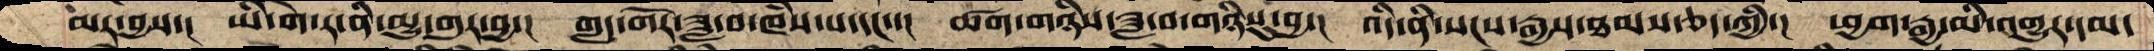མར་བྱས་།  ཡི་གེ་ར་ནི་མྱུ་གུར་བྱ་།  གླད་གོར་ཟླ་བ་ཁཾས་པ་དང་་།  ཚག་གཉིས་ཟླ་བ་གཉིས་སུ་བྱ་།  འདི་ནི་སངས་རྒྱས་ཐམས་ཅད་ཀྱི་།  ཕྱག་རྒྱ་མི་འགྱུར་དམ་
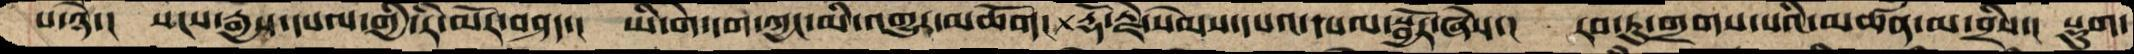པ་ཉེ་།  སངས་རྒྱས་དཔལ་གྱི་རི་མོར་བཤད་།  ཡི་གེ་དག་ཀྱང་མི་འགྱུར་མཆོག།  རྡོ་རྗེ་སེམས་དཔའ་དཔལ་སྦྱོར་ཞེས་།  རབ་ཏུ་གྲགས་པའི་མཚན་མ་བྲིས་།  སྡུག་
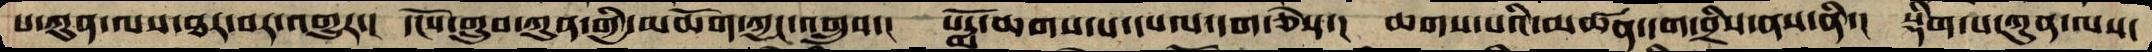པ་ཀུན་ལས་ཐར་བར་འགྱུར་།  དངོས་གྲུབ་ཀུན་གྱི་མཆོག་ཀྱང་འགྲུབ་།  པདྨོ་ཆགས་པ་དཔལ་དག་ཅེས་།  ཆགས་པའི་མཚན་དག་བྲིས་ནས་ནི་།  སྡིག་པ་ཀུན་ལས་
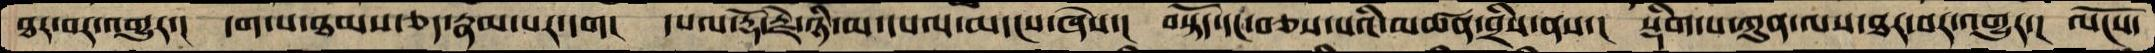ཐར་བར་འགྱུར་།  དག་པ་ཐམས་ཅད་རྣམ་པར་དག།  དཔལ་རྡོ་རྗེ་ཉི་མ་དཔལ་མདངས་ཞེས་།  བསྟོད་དང་བཅས་པའི་མཚན་བྲིས་ནས་།  སྡིག་པ་ཀུནལས་ཐར་བར་འགྱུར་།  ལོངས་
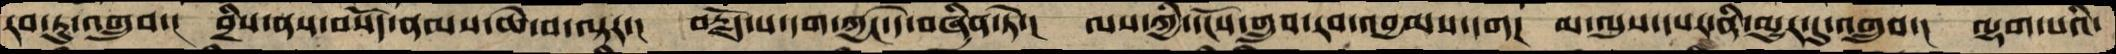རབ་ཏུ་འགྲུབ་།  བྲིས་ནས་བསོད་ནམས་ཆེ་བ་ལྟར་།  བརྗོད་པ་དག་ཀྱང་དེ་བཞིན་ཏེ་།  ལས་ཀྱི་དངོས་གྲུབ་རབ་འབྱམས་དག།  མ་ལུས་དཔར་ནི་མྱུར་དུ་འགྲུབ་།  ལྷག་པའི་
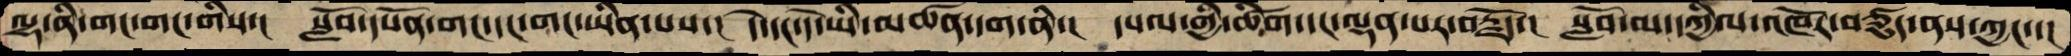ལྷ་ནི་གང་གང་གིས་།  སློབ་དཔོན་གང་དང་གང་ཡིན་པས་།  དེ་དང་དེ་ཡི་མཚན་དག་ནི་།  དཔལ་གྱི་ཚིག་དང་ལྡན་པར་བརྗོད་།  སློབ་མ་དཀྱིལ་འཁོར་བཙུད་ནས་ཀྱང་་།
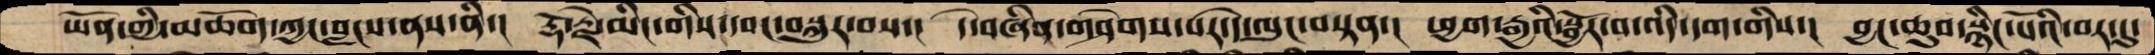ཡོན་གྱི་མཆོག་ཀྱང་བླངས་ནས་ནི་།  རྡོ་རྗེ་མིང་གིས་དབང་བསྐུར་བས་།  དེ་བཞིན་གཤེགས་པར་དེ་ལུང་བསྟན་།  ཕྱག་རྒྱའི་སྦྱོར་བ་འདི་དག་གིས་།  བྱང་ཆུབ་སྙིང་པོའི་བར་དུ་
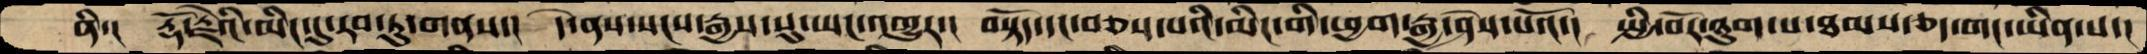ནི་།  རྡོ་རྗེའི་མིང་དུ་རབ་ཏུ་གནས་།  དེ་ནས་སངས་རྒྱས་སུ་ཡང་འགྱུར་།  བསྟོད་དང་བཅས་པའི་མིང་གི་ཕྱག་རྒྱ་ཤེས་པའོ་།  སྤྱི་བོར་ཉུག་པ་ཐམས་ཅད་གང་ཡིན་པ་།
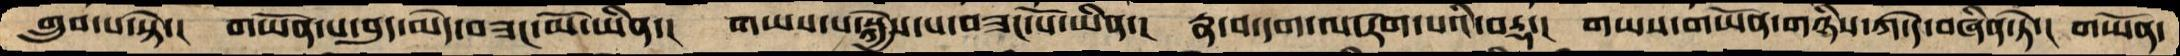གྲུབ་པ་སྟེ་།  གཡོན་པ་བུད་མེད་བཟང་མོ་ཡིན་།  གཡས་པ་སྐྱེས་པ་བཟང་པོ་ཡིན་།  རྣ་བ་དག་ལ་རེག་པའི་བརྡ་།  གཡས་གཡོན་གཉིས་ཀ་དེ་བཞིན་ཏེ་།  གཡོན་
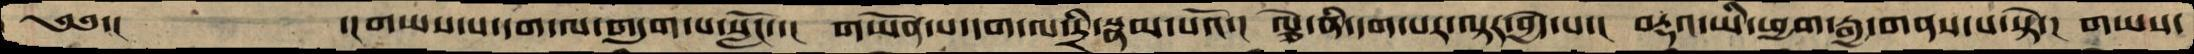༄༅་།    ་།གཡས་པ་དག་ལ་གདུག་པ་སློང་་།  གཡོན་པ་དག་ལ་དྲི་སྣམ་པའོ་།  ལྕེ་ནི་དག་པར་ལྟར་བྱེད་པ།  བརྡའ་ཡི་ཕྱག་རྒྱ་གནས་པ་་སྟེ་།  གཡས་
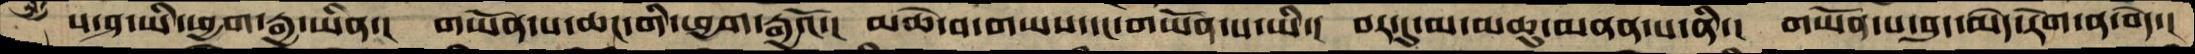ས་ཤ་ཡི་ཕྱག་རྒྱ་ཡིན་། གཡོན་པ་ཆང་གི་ཕྱག་རྒྱའོ་། མཆེ་བ་གཡས་དང་གཡོན་པ་ཡི་། བར་ཏུ་མ་མཆུ་མནན་པ་ནི་། གཡོན་པ་བུད་མེད་རེག་ན་བདེ་།
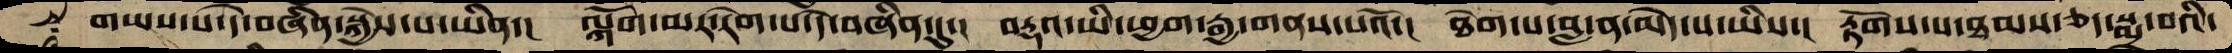གཡས་པ་དེ་བཞིན་སྐྱེས་པ་ཡིན་། ལྐོག་མར་རེག་པ་དེ་བཞིན་དུ་། བརྡའ་ཡི་ཕྱག་རྒྱ་གནས་པའོ་། ཐེག་པ་བླ་ན་མེད་པ་ཡིས་། རྟོགས་པ་ཐམས་ཅད་སྨྲ་བའི་
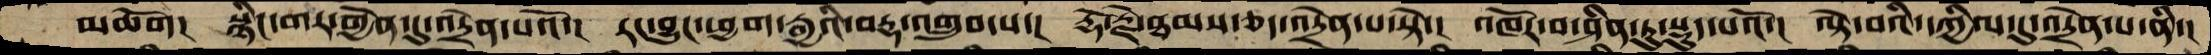མཆོག།  སྙིང་གར་གྱེན་དུ་འདྲེན་པའོ་།  རབ་བྱུང་ཕྱག་རྒྱའི་བརྡ་འགྲུབ་པ་།  རྡོ་རྗེ་ཐམས་ཅད་འདྲེན་པ་སྟེ་།  འཁོར་བ་ཤིན་ཏུ་སྡུད་པའོ་།  ལྟེ་བའི་དཀྱིལ་དུ་འདྲེན་པ་ནི་།
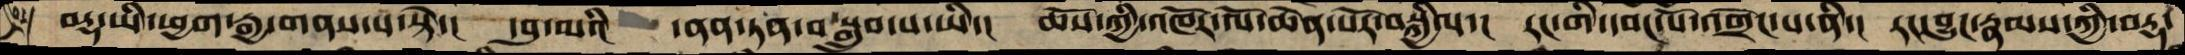བརྡ་ཡི་ཕྱག་རྒྱ་གནས་པ་སྟེ་། དབུ་མའི   ་ནན་ཏན་བསྒྲུབ་པ་ཡི་། ཆོས་ཀྱི་འཁོར་ལོ་ཆེན་པོར་བསྐྱིལ་། རང་གི་དབང་པོ་འགྲེང་པ་ནི་། རང་བྱུང་རྣམས་ཀྱི་བརྡ་
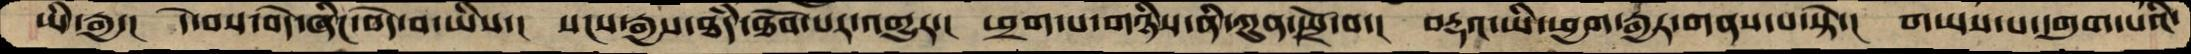ཡི་རྒྱ་།  དེ་བས་བདེ་ཞིང་བདེ་བ་ཡིས་།  སངས་རྒྱས་ཐདཾ་ཐོབ་པར་འགྱུར་།  ཕྲག་པ་གཉིས་ནི་ཀུན་སྤྲོ་བ་།  བརྡའ་ཡི་ཕྱག་་རྒྱར་གནས་པ་སྟེ་།  གཡས་པ་དགུག་པའི་
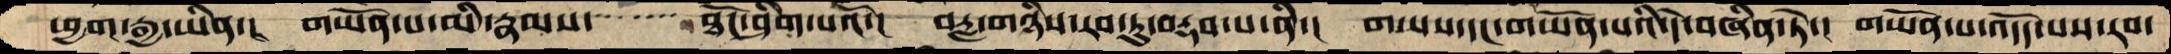ཕྱག་རྒྱ་ཡིན་།  གཡོན་པ་མི་རྣམས་     ཐོང་ཤིག་པའོ་།  བརླ་གཉིས་རབ་ཏུ་བརྡབ་པ་ནི་།  གཡས་དང་གཡོན་པའི་དེ་བཞིན་ཏེ་།  གཡོན་པ་འདོད་པས་རབ་
